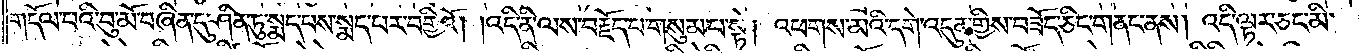གདོལ་པའི་བུ་མོ་བཞིན་དུ་ཤིན་ཏུ་སྨད་པས་སྨད་པར་བགྱིའོ། །འདི་ནི་ལས་བརྗོད་པ་གསུམ་པ་སྟེ། འཕགས་མའི་དགེ་འདུན་གྱིས་བཟོད་ཅིང་གནང་ནས། འདི་ལྟར་ཅང་མི་
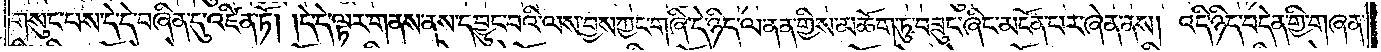གསུང་པས་དེ་དེ་བཞིན་དུ་འཛིན་ཏོ། །དེ་དེ་ལྟར་གནས་ནས་དབྱུང་བའི་ལས་བྱས་ཀྱང་གཞི་དེ་ཉིད་ལ་ནན་གྱིས་མཆོག་ཏུ་བཟུང་ཞིང་མངོན་པར་ཞེན་ནས། འདི་ཉིད་བདེན་གྱི་གཞན་
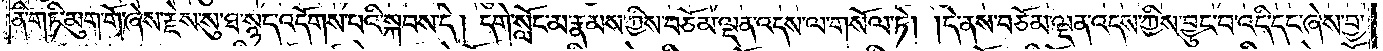ནི་གཏི་མུག་གོ་ཞེས་རྗེས་སུ་ཐ་སྙད་འདོགས་པའི་སྐབས་དེ། དགེ་སློང་མ་རྣམས་ཀྱིས་བཅོམ་ལྡན་འདས་ལ་གསོལ་ཏེ། །དེ་ནས་བཅོམ་ལྡན་འདས་ཀྱིས་བྱུང་བ་འདི་དང་ཞེས་བྱ་
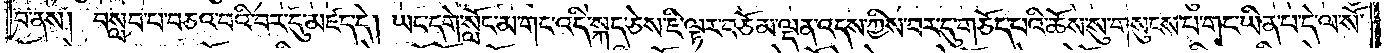བ་ནས། བསླབ་པ་བཅའ་བའི་བར་དུ་མཛད་དེ། ཡང་དགེ་སློང་མ་གང་འདི་སྐད་ཅེས་ཇི་ལྟར་བཅོམ་ལྡན་འདས་ཀྱིས་བར་དུ་གཅོད་པའི་ཆོས་སུ་གསུངས་པ་གང་ཡིན་པ་དེ་ལ་སོ་
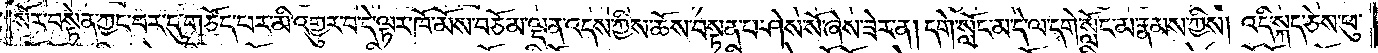སོར་བསྟེན་ཀྱང་བར་དུ་གཅོད་པར་མི་འགྱུར་བ་དེ་ལྟར་ཁོ་མོས་བཅོམ་ལྡན་འདས་ཀྱིས་ཆོས་བསྟན་པ་ཤེས་སོ་ཞེས་ཟེར་ན། དགེ་སློང་མ་དེ་ལ་དགེ་སློང་མ་རྣམས་ཀྱིས། འདི་སྐད་ཅེས་ཕུ་
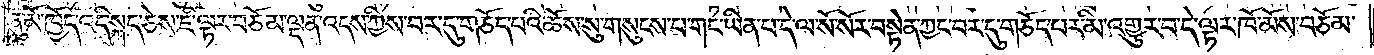ནུ་མོ་ཁྱོད་འདི་སྐད་ཅེས་ཇི་ལྟར་བཅོམ་ལྡན་འདས་ཀྱིས་བར་དུ་གཅོད་པའི་ཆོས་སུ་གསུངས་པ་གང་ཡིན་པ་དེ་ལ་སོ་སོར་བསྟེན་ཀྱང་བར་དུ་གཅོད་པར་མི་འགྱུར་བ་དེ་ལྟར་ཁོ་མོས་བཅོམ་
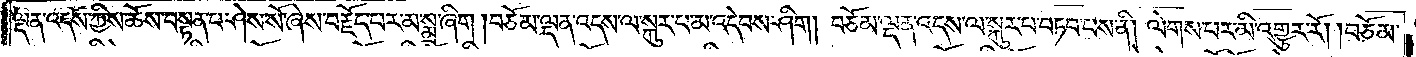ལྡན་འདས་ཀྱིས་ཆོས་བསྟན་པ་ཤེས་སོ་ཞེས་བརྗོད་པར་མ་སྨྲ་ཞིག །བཅོམ་ལྡན་འདས་ལ་སྐུར་པ་མ་འདེབས་ཤིག། བཅོམ་ལྡན་འདས་ལ་སྐུར་པ་བཏབ་པས་ནི། ལེགས་པར་མི་འགྱུར་རོ། །བཅོམ་
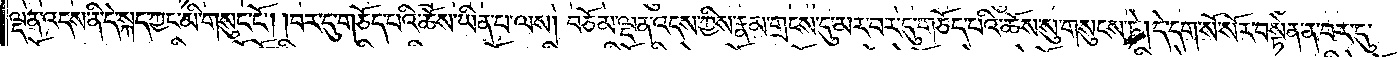ལྡན་འདས་ནི་དེ་སྐད་ཀྱང་མི་གསུང་ངོ༌། །བར་དུ་གཅོད་པའི་ཆོས་ཡིན་པ་ལས། བཅོམ་ལྡན་འདས་ཀྱིས་རྣམ་གྲངས་དུ་མར་བར་དུ་གཅོད་པའི་ཆོས་སུ་གསུངས་ཏེ། དེ་དག་སོ་སོར་བསྟེན་ན་བར་དུ་
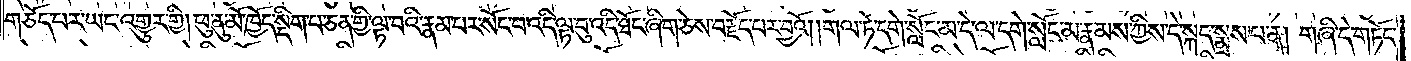གཅོད་པར་ཡང་འགྱུར་གྱི། ཕུ་ནུ་མོ་ཁྱོད་སྡིག་པ་ཅན་གྱི་ལྟ་བའི་རྣམ་པར་སོང་བ་འདི་ལྟ་བུ་འདི་ཐོང་ཞིག་ཅེས་བརྗོད་པར་བྱའོ། །གལ་ཏེ་དགེ་སློང་མ་དེ་ལ་དགེ་སློང་མ་རྣམས་ཀྱིས་དེ་སྐད་སྨྲས་པ་ན། གཞི་དེ་གཏོང་
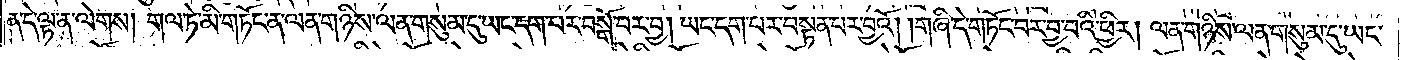ན་དེ་ལྟ་ན་ལེགས། གལ་ཏེ་མི་གཏོང་ན་ལན་གཉིས་ལན་གསུམ་དུ་ཡང་དག་པར་བསྒོ་བར་བྱ། ཡང་དག་པར་བསྟན་པར་བྱའོ། །གཞི་དེ་གཏོང་བར་བྱ་བའི་ཕྱིར། ལན་གཉིས་ལན་གསུམ་དུ་ཡང་
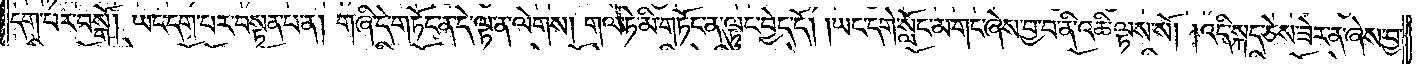དག་པར་བསྒོ། ཡང་དག་པར་བསྟན་པ་ན། གཞི་དེ་གཏོང་ན་དེ་ལྟ་ན་ལེགས། གལ་ཏེ་མི་གཏོང་ན་ལྟུང་བྱེད་དོ། །ཡང་དགེ་སློང་མ་གང་ཞེས་བྱ་བ་ནི་འཆི་ལྟས་སོ། །འདི་སྐད་ཅེས་ཟེར་ན་ཞེས་བྱ་
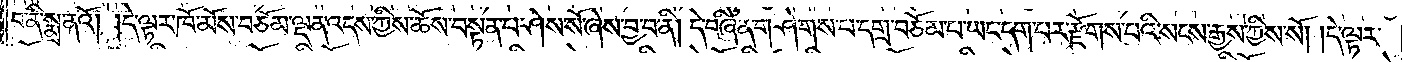བ་ནི་སྨྲ་ནའོ། །དེ་ལྟར་ཁོ་མོས་བཅོམ་ལྡན་འདས་ཀྱིས་ཆོས་བསྟན་པ་ཤེས་སོ་ཞེས་བྱ་བ་ནི། དེ་བཞིན་གཤེགས་པ་དགྲ་བཅོམ་པ་ཡང་དག་པར་རྫོགས་པའི་སངས་རྒྱས་ཀྱིས་སོ། །དེ་ལྟར་
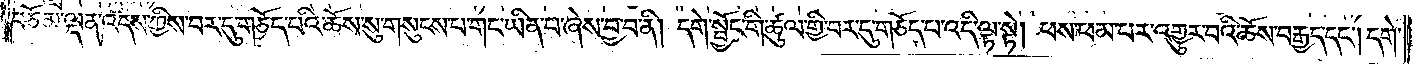བཅོམ་ལྡན་འདས་ཀྱིས་བར་དུ་གཅོད་པའི་ཆོས་སུ་གསུངས་པ་གང་ཡིན་པ་ཞེས་བྱ་བ་ནི། དགེ་སྦྱོང་གི་ཚུལ་གྱི་བར་དུ་གཅོད་པ་འདི་ལྟ་སྟེ། ཕས་ཕམ་པར་འགྱུར་བའི་ཆོས་བརྒྱད་དང༌། དགེ་
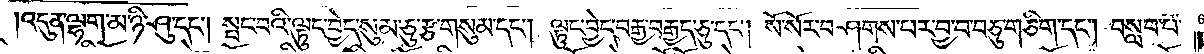འདུན་ལྷག་མ་ཉི་ཤུ་དང༌། སྤང་བའི་ལྟུང་བྱེད་སུམ་ཅུ་རྩ་གསུམ་དང༌། ལྟུང་བྱེད་བརྒྱ་བརྒྱད་ཅུ་དང༌། སོ་སོར་བཤགས་པར་བྱ་བ་བཅུ་གཅིག་དང༌། བསླབ་པ་
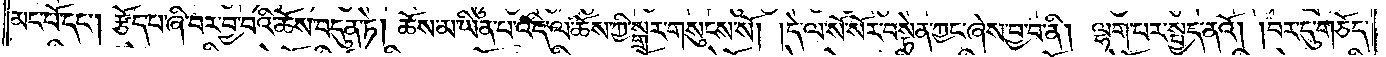མང་པོ་དང༌། རྩོད་པ་ཞི་བར་བྱ་བའི་ཆོས་བདུན་ཏེ། ཆོས་མ་ཡིན་པ་འདི་ལ་ཆོས་ཀྱི་སྒྲར་གསུངས་སོ། །དེ་ལ་སོ་སོར་བསྟེན་ཀྱང་ཞེས་བྱ་བ་ནི། ལྷག་པར་སྤྱད་ནའོ། །བར་དུ་གཅོད་
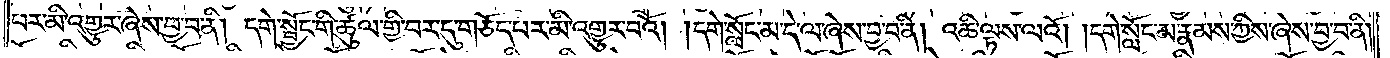པར་མི་འགྱུར་ཞེས་བྱ་བ་ནི། དགེ་སྦྱོང་གི་ཚུལ་གྱི་བར་དུ་གཅོད་པར་མི་འགྱུར་བའོ། །དགེ་སློང་མ་དེ་ལ་ཞེས་བྱ་བ་ནི། འཆི་ལྟས་ལའོ། །དགེ་སློང་མ་རྣམས་ཀྱིས་ཞེས་བྱ་བ་ནི།
